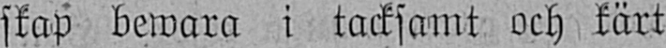skap bewara i tacksamt och kärt
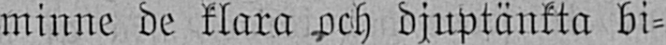minne de klara djuptänkta bi-
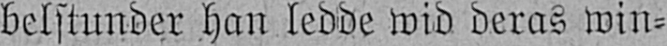belstunder han ledde wid deras win-
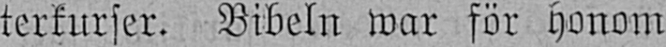terkurser. Bibeln war för honom
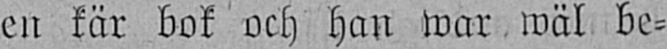en kär bok och han war wäl be-
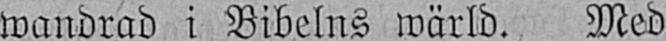wandrad i Bibelns wärld. Med
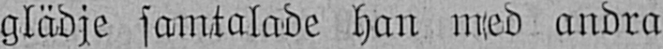glädje samtalade han med andra
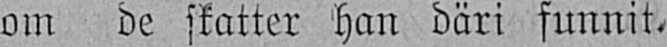om de skatter han däri funnit.
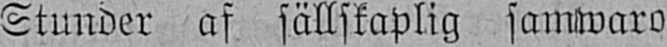Stunder af sällskaplig samwaro
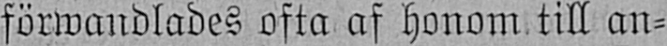förwandlades ofta af honom till an-
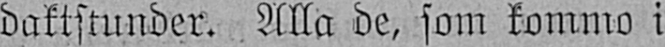daktstunder. Alla de, som kommo i
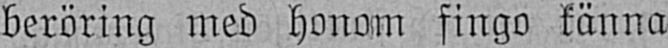beröring med honom fingo känna
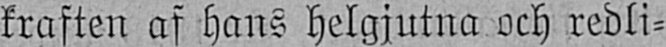kraften af hans helgjutna och redli-
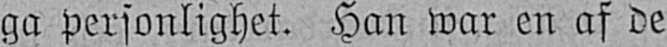ga personlighet. Han war en af de
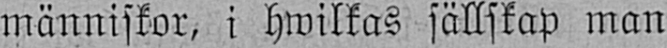människor, i hwilkas sällskap man
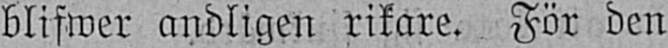blifwer andligen rikare. För den
